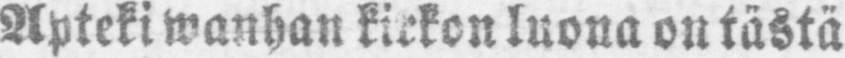Apteki wanhan kirkon luona on tästä
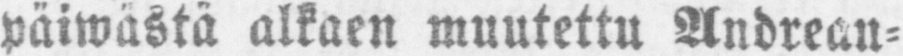päiwästä alkaen muutettu Andrean-
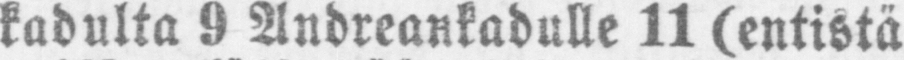kadulta 9 Andreankadulle 11 (entistä
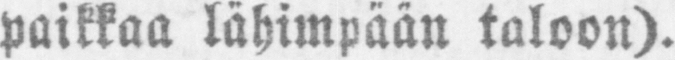paikkaa lähimpään taloon).
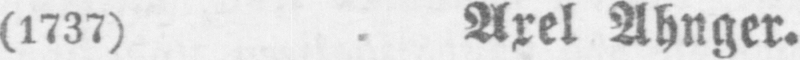(1737) Axel Ahnger.
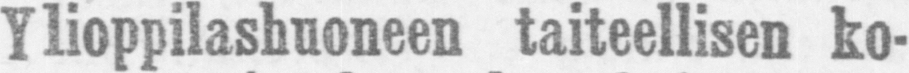Ylioppilashuoneen taiteellisen ko-
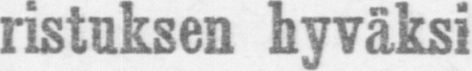ristuksen hyväksi
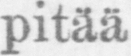pitää
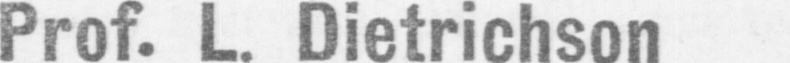Prof. L. Dietrichson
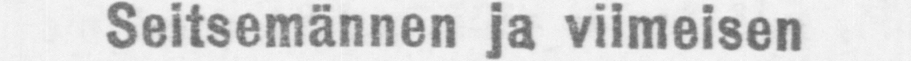Seitsemännen ja viimeisen
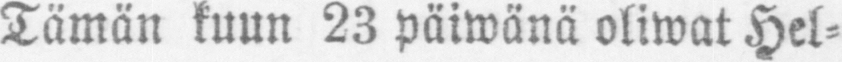Tämän kuun 23 päiwänä oliwat Hel-
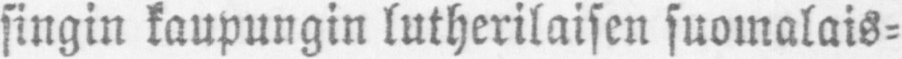singin kaupungin lutherilaisen suomalais-
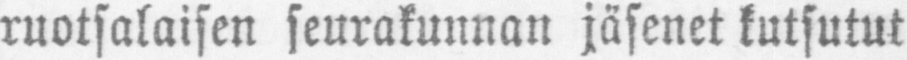ruotsalaisen seurakunnan jäsenet kutsutut
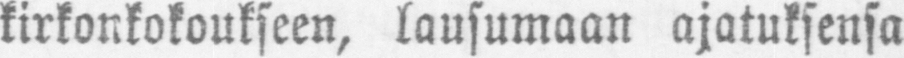kirkonkokoukseen, lausumaan ajatuksensa
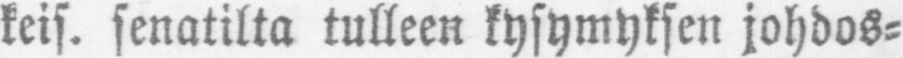keis. senatilta tulleen kysymyksen johdos-
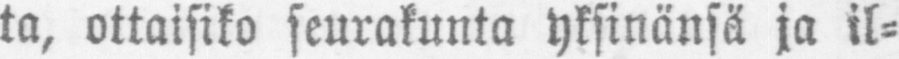ta, ottaisiko seurakunta yksinänsä ja il-
